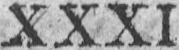XXXI
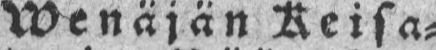wenäjän Keisa-
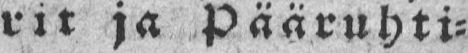rit ja pääruhti-
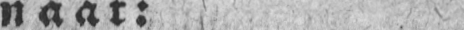naat :
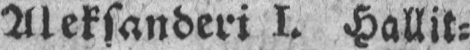Aleksander I. Hallit-
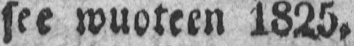see wuoteen 1825.
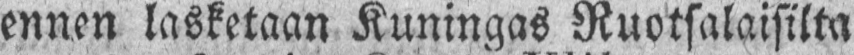ennen lasketaan Kuningas Ruotsalalaisilta
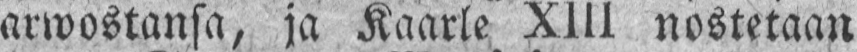arwostansa, ja Kaarle XIII nostetaan
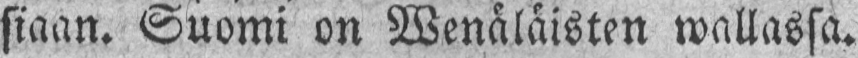siaan. suomi on Wenäläisten wallassa.
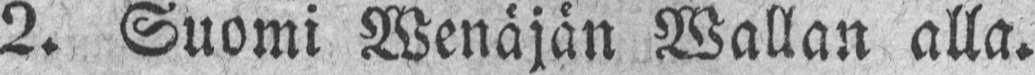2. Suomi Wenäjän Wallan alla.
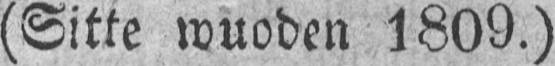(Sitte Wuoden 1809.)
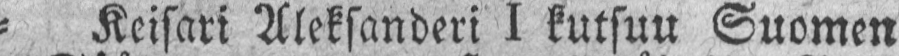- Keisari Aleksanderi I kutsuu Suomen
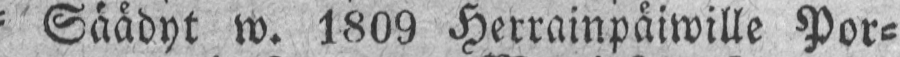- Säädyt w. 1809 Herrainpäiwille Por-
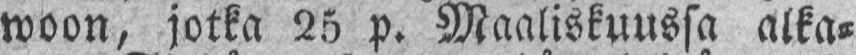woon, jotka 25 p. Maaliskuussa alka-
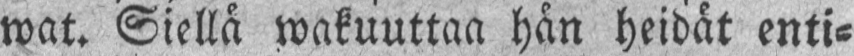wat. Siellä wakuuttaa hän heidät enti-
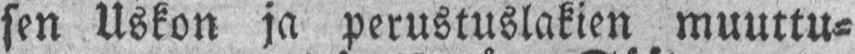sen Uskon ja perustuslakien muuttu-
